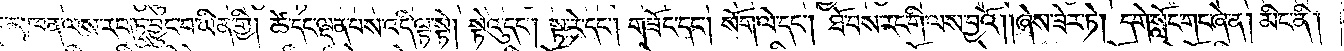ཤིང་མཁན་ལས་རབ་ཏུ་བྱུང་བ་ཡིན་གྱི། ཚེ་དང་ལྡན་པས་འདི་ལྟ་སྟེ། སྟེའུ་དང༌། སྟ་རེ་དང༌། གཟོང་དང༌། སོག་ལེ་དང༌། ཐོ་བས་རང་གི་ལས་བྱའོ། །ཞེས་ཟེར་ཏེ། དགེ་སློང་གང་ཞེ་ན། མིང་ནི།
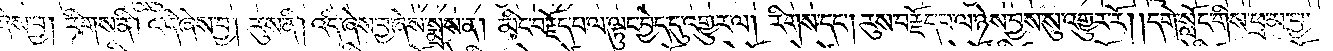ཞེས་བྱ། རིགས་ནི། འདི་ཞེས་བྱ། རུས་ནི། འདི་ཞེས་བྱ་ཞེས་སྨྲས་ན། མིང་བརྗོད་པ་ལ་ལྟུང་བྱེད་དུ་འགྱུར་ལ། རིགས་དང༌། རུས་བརྗོད་པ་ལ་ཉེས་བྱས་སུ་འགྱུར་རོ། །དགེ་སློང་གིས་ཕྲ་མ་བྱ་
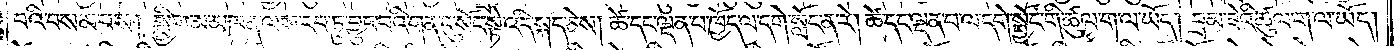བའི་བསམ་པས། སྨྱིག་མ་མཁན་ལས་རབ་ཏུ་བྱུང་བའི་གན་དུ་སོང་སྟེ་འདི་སྐད་ཅེས། ཚེ་དང་ལྡན་པ་ཁྱོད་ལ་དགེ་སློང་ན་རེ། ཚེ་དང་ལྡན་པ་ལ་དགེ་སྦྱོང་གི་ཚུལ་ག་ལ་ཡོད། བྲམ་ཟེའི་ཚུལ་ག་ལ་ཡོད།
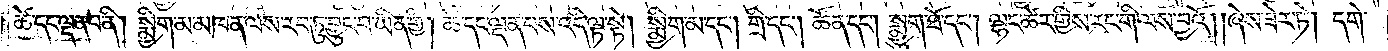ཚེ་དང་ལྡན་པ་ནི། སྨྱིག་མ་མཁན་ལས་རབ་ཏུ་བྱུང་བ་ཡིན་གྱི། ཚེ་དང་ལྡན་པས་འདི་ལྟ་སྟེ། སྨྱིག་མ་དང༌། གྲི་དང༌། ཚོན་དང༌། སྨྱུག་ཐོ་དང༌། ལྷང་ཚེར་གྱིས་རང་གི་ལས་བྱའོ། །ཞེས་ཟེར་ཏེ། དགེ་
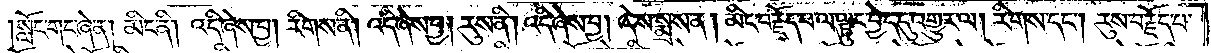སློང་གང་ཞེ་ན། མིང་ནི། འདི་ཞེས་བྱ། རིགས་ནི། འདི་ཞེས་བྱ། རུས་ནི། འདི་ཞེས་བྱ། ཞེས་སྨྲས་ན། མིང་བརྗོད་པ་ལ་ལྟུང་བྱེད་དུ་འགྱུར་ལ། རིགས་དང༌། རུས་བརྗོད་པ་
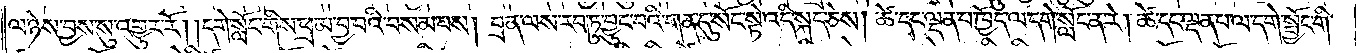ལ་ཉེས་བྱས་སུ་འགྱུར་རོ། །དགེ་སློང་གིས་ཕྲ་མ་བྱ་བའི་བསམ་པས། བྲན་ལས་རབ་ཏུ་བྱུང་བའི་གན་དུ་སོང་སྟེ་འདི་སྐད་ཅེས། ཚེ་དང་ལྡན་པ་ཁྱོད་ལ་དགེ་སློང་ན་རེ། ཚེ་དང་ལྡན་པ་ལ་དགེ་སྦྱོང་གི་
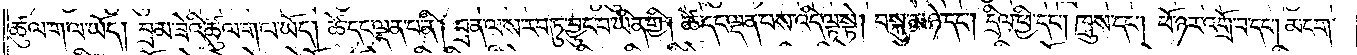ཚུལ་ག་ལ་ཡོད། བྲམ་ཟེའི་ཚུལ་ག་ལ་ཡོད། ཚེ་དང་ལྡན་པ་ནི། བྲན་ལས་རབ་ཏུ་བྱུང་བ་ཡིན་གྱི། ཚེ་དང་ལྡན་པས་འདི་ལྟ་སྟེ། བསྐུ་མཉེ་དང༌། དྲིལ་ཕྱི་དང༌། ཁྲུས་དང༌། ཕོ་ཉར་འགྲོ་བ་དང༌། མངག་
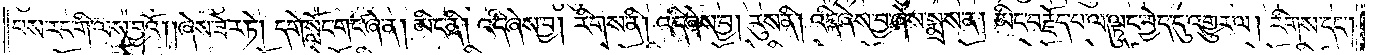པས་རང་གི་ལས་བྱའོ། །ཞེས་ཟེར་ཏེ། དགེ་སློང་གང་ཞེ་ན། མིང་ནི། འདི་ཞེས་བྱ། རིགས་ནི། འདི་ཞེས་བྱ། རུས་ནི། འདི་ཞེས་བྱ་ཞེས་སྨྲས་ན། མིང་བརྗོད་པ་ལ་ལྟུང་བྱེད་དུ་འགྱུར་ལ། རིགས་དང༌།
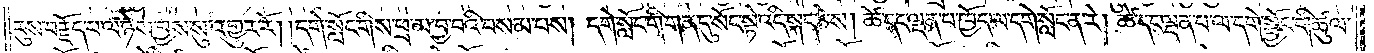རུས་བརྗོད་པ་ལ་ཉེས་བྱས་སུ་འགྱུར་རོ། །དགེ་སློང་གིས་ཕྲ་མ་བྱ་བའི་བསམ་པས། དགེ་སློང་གི་གན་དུ་སོང་སྟེ་འདི་སྐད་ཅེས། ཚེ་དང་ལྡན་པ་ཁྱོད་ལ་དགེ་སློང་ན་རེ། ཚེ་དང་ལྡན་པ་ལ་དགེ་སྦྱོང་གི་ཚུལ་
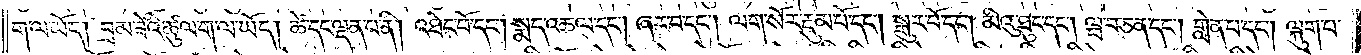ག་ལ་ཡོད། བྲམ་ཟེའི་ཚུལ་ག་ལ་ཡོད། ཚེ་དང་ལྡན་པ་ནི། འཐེང་པོ་དང༌། སྨད་འཆལ་དང༌། ཞར་བ་དང༌། ལག་སོར་རྡུམ་པོ་དང༌། སྒུར་པོ་དང༌། མིའུ་ཐུང་དང༌། ཝ་བ་ཅན་དང༌། གླེན་པ་དང༌། ལྐུག་པ་
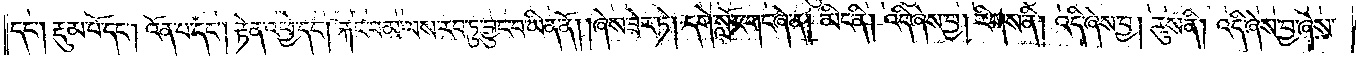དང༌། རྡུམ་པོ་དང༌། འོན་པ་དང༌། རྟེན་འཕྱེ་དང༌། རྐང་བམ་ལས་རབ་ཏུ་བྱུང་བ་ཡིན་ནོ། །ཞེས་ཟེར་ཏེ། དགེ་སློང་གང་ཞེ་ན། མིང་ནི། འདི་ཞེས་བྱ། རིགས་ནི། འདི་ཞེས་བྱ། རུས་ནི། འདི་ཞེས་བྱ་ཞེས་
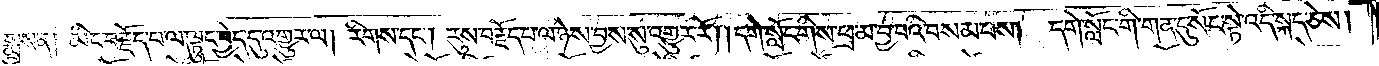སྨྲས་ན། མིང་བརྗོད་པ་ལ་ལྟུང་བྱེད་དུ་འགྱུར་ལ། རིགས་དང༌། རུས་བརྗོད་པ་ལ་ཉེས་བྱས་སུ་འགྱུར་རོ། །དགེ་སློང་གིས་ཕྲ་མ་བྱ་བའི་བསམ་པས། དགེ་སློང་གི་གན་དུ་སོང་སྟེ་འདི་སྐད་ཅེས།
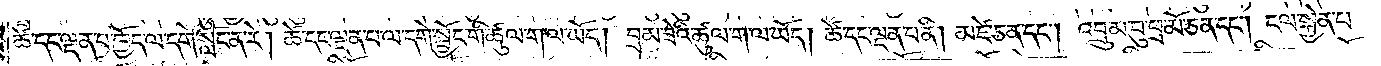ཚེ་དང་ལྡན་པ་ཁྱོད་ལ་དགེ་སློང་ན་རེ། ཚེ་དང་ལྡན་པ་ལ་དགེ་སྦྱོང་གི་ཚུལ་ག་ལ་ཡོད། བྲམ་ཟེའི་ཚུལ་ག་ལ་ཡོད། ཚེ་དང་ལྡན་པ་ནི། མཛེ་ཅན་དང༌། འབྲུམ་བུ་ཕྲ་མོ་ཅན་དང༌། ངལ་སྐྱེན་པ་
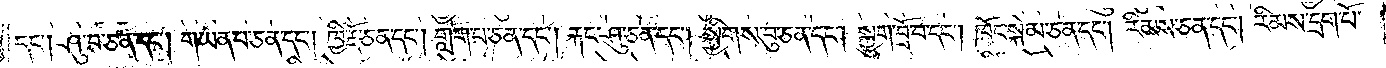དང༌། ཤུ་བ་ཅན་དང༌། གཡན་པ་ཅན་དང༌། ཁྱི་རྡོ་ཅན་དང༌། གློག་པ་ཅན་དང༌། རྐང་ཤུ་ཅན་དང༌། སྐྱིགས་བུ་ཅན་དང༌། སྐྱུག་བྲོ་བ་དང༌། ཁོང་སྐེམ་ཅན་དང༌། རིམས་ཅན་དང༌། རིགས་དྲག་པོ་
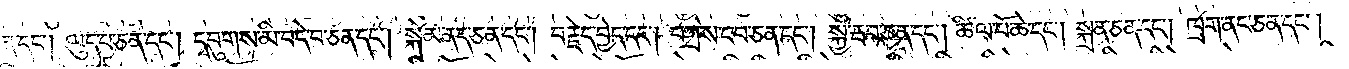ན་དང༌། ལུད་པ་ཅན་དང༌། དབུགས་མི་བདེ་བ་ཅན་དང༌། སྐེམ་ནད་ཅན་དང༌། བརྗེད་བྱེད་དང༌། བཀྲེས་ངབ་ཅན་དང༌། སྐྱ་རྦབ་ཅན་དང༌། ཚིལ་པོ་ཆེ་དང༌། སྐྲན་ཅན་དང༌། ཁྲག་ནད་ཅན་དང༌།
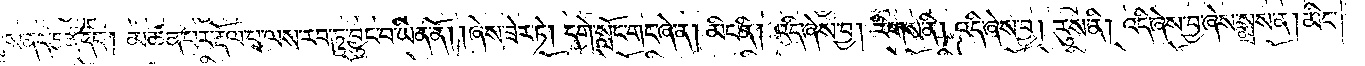ས་ནད་ཅན་དང༌། མཚན་པར་རྡོལ་པ་ལས་རབ་ཏུ་བྱུང་བ་ཡིན་ནོ། །ཞེས་ཟེར་ཏེ། དགེ་སློང་གང་ཞེ་ན། མིང་ནི། འདི་ཞེས་བྱ། རིགས་ནི། འདི་ཞེས་བྱ། རུས་ནི། འདི་ཞེས་བྱ་ཞེས་སྨྲས་ན། མིང་
